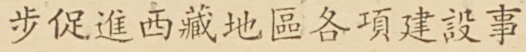步促進西藏地區各項建設事
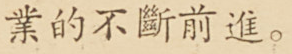業的不斷前進。
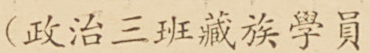（政治三班藏族學員
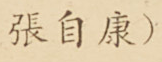張自康）
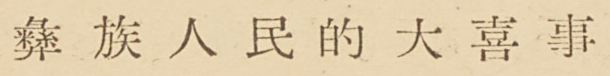彝 族 人 民 的 大 喜 事
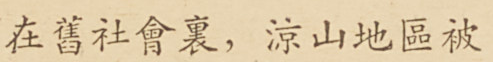在舊社會裏，涼山地區被
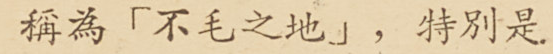稱爲「不毛之地」，特別是
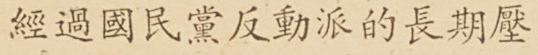經過國民黨反動派的長期壓
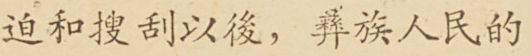迫和搜刮以後，彝族人民的
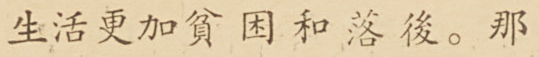生活更加貧困和落後。那
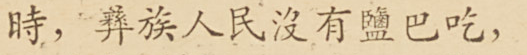時，彝族人民沒有鹽巴吃，
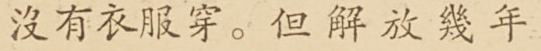沒有衣服穿。但解放幾年
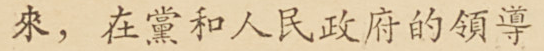來，在黨和人民政府的領導
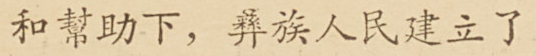和幫助下，彝族人民建立了
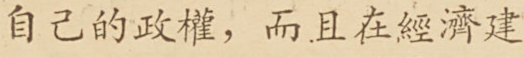自己的政權，而且在經濟建
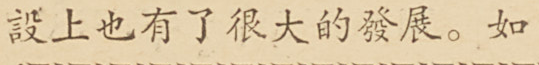設上也有了很大的發展。如
